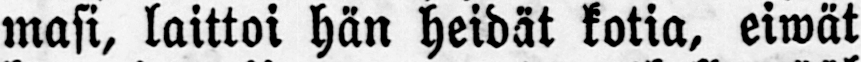masi, laittoi hän heidät kotia, eiwät
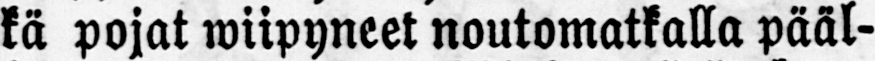kä pojat wiipyneet nautomatkalla pääl-
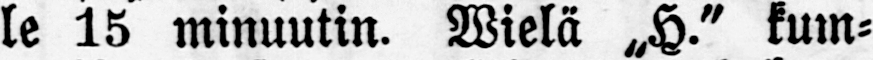le 15 minuutin. Wielä „H." kum-
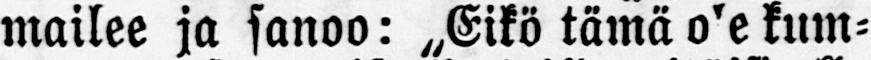mailee ja sanoo: ,Eikö tämä ole kum-
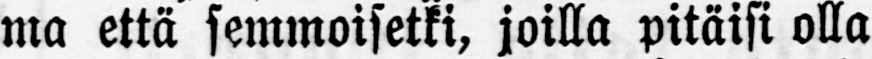ma että semmoisetki, joilla pitäisi olla
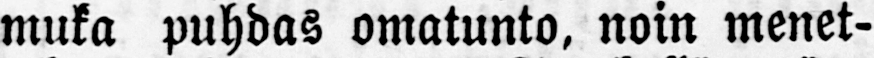muka puhdas omatunto, noin menet-
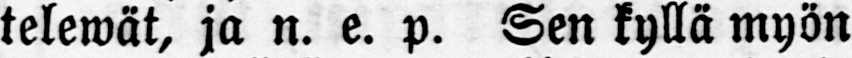telewät, ja n. e. p. Sen kyllä myön
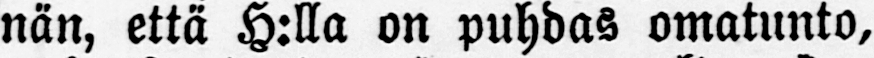nän, että H:lla on puhdas omatunto,
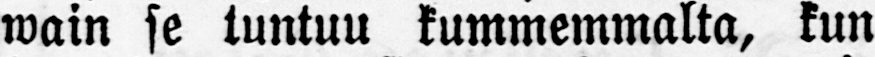wain se tuntuu kummemmalta, kun
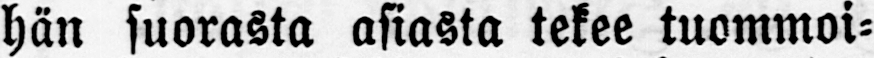hän suorasta asiasta tekee tuommoi-
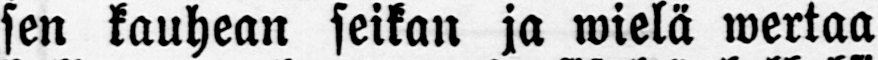sen kauhean seikan ja wielä wertaa
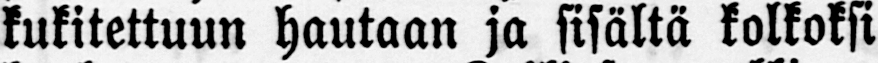kukitettuun hautaan ja sisältä kolkoksi
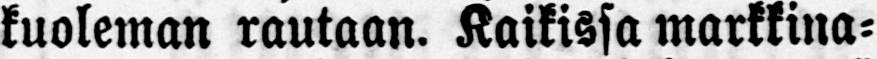kuoleman rautaan. Kaikissa markkina-
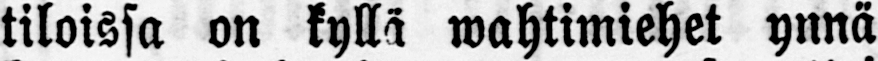tiloissa on kyllä wahtimiehet ynnä
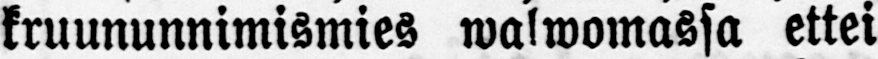kruununnimismies walwomassa ettei
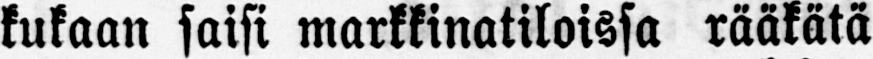kukaan saisi markkinatiloissa rääkätä
